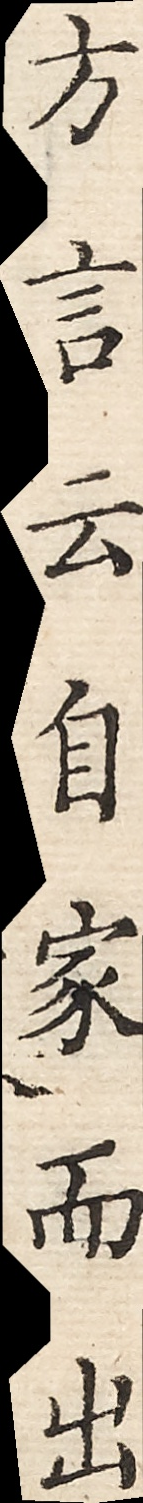方言云自家而出
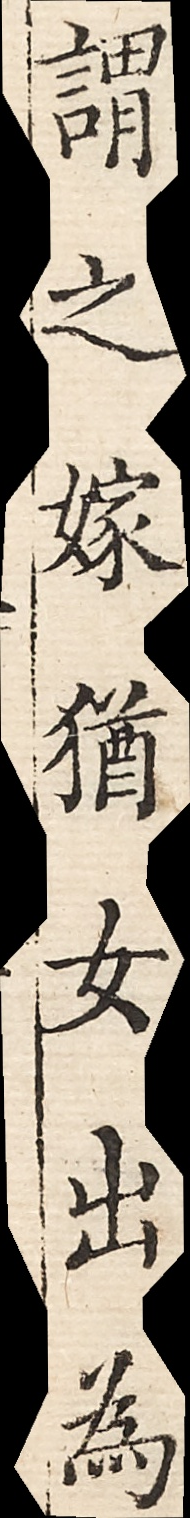謂之嫁猶女出為
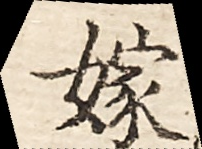嫁
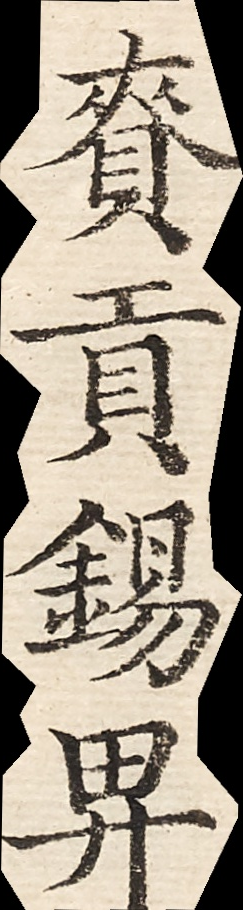賚貢錫畀
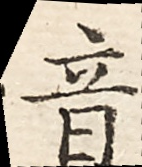音
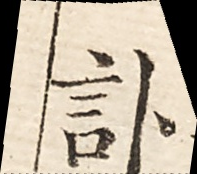訃
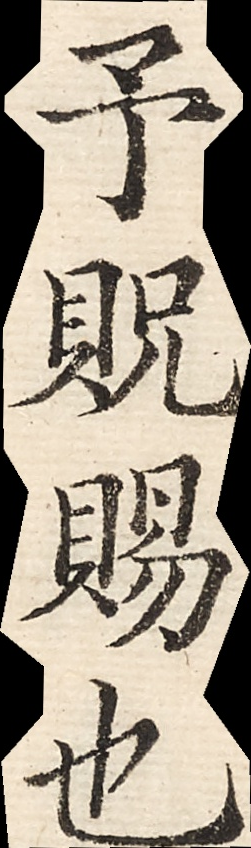予貺賜也
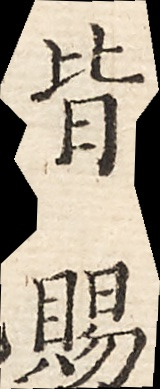皆賜
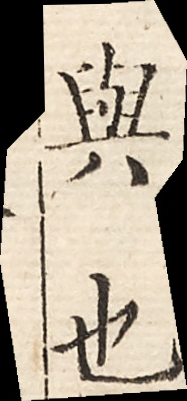于也
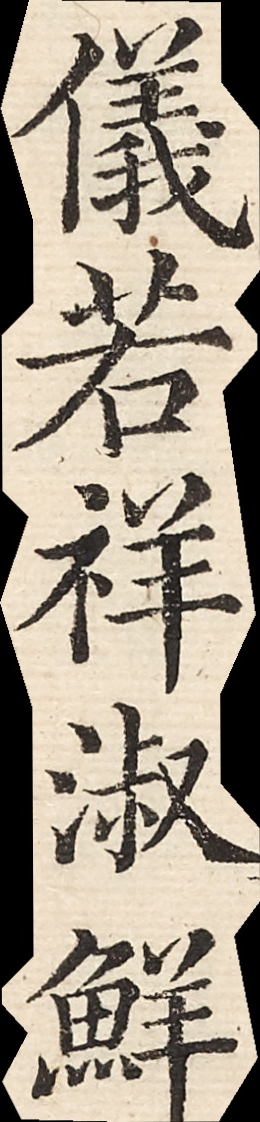儀若祥淑鮮
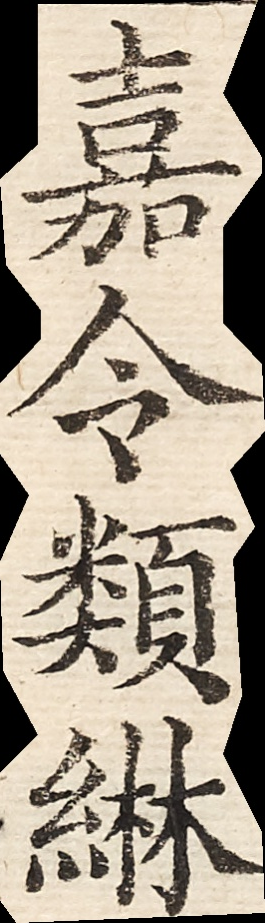嘉令類綝
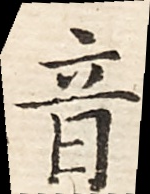音
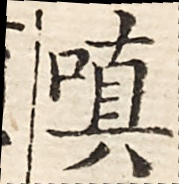嗔
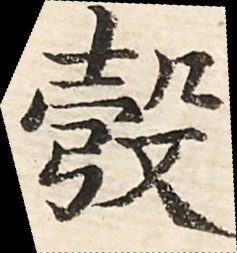彀
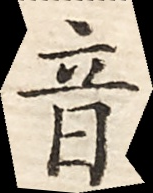音
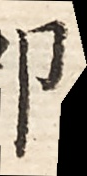叩
